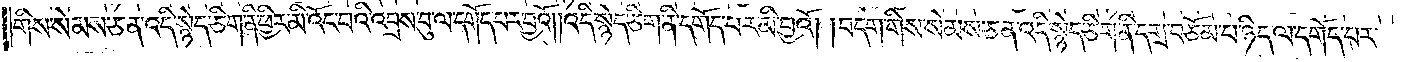གིས་སེམས་ཅན་འདི་སྙེད་ཅིག་ནི་ཕྱིར་མི་འོང་བའི་འབྲས་བུ་ལ་དགོད་པར་བྱའོ། །འདི་སྙེད་ཅིག་ནི་དགོད་པར་མི་བྱའོ། །བདག་གིས་སེམས་ཅན་འདི་སྙེད་ཅིག་ནི་དགྲ་བཅོམ་པ་ཉིད་ལ་དགོད་པར་
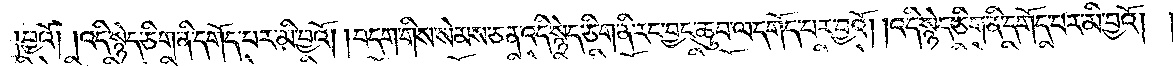བྱའོ། །འདི་སྙེད་ཅིག་ནི་དགོད་པར་མི་བྱའོ། །བདག་གིས་སེམས་ཅན་འདི་སྙེད་ཅིག་ནི་རང་བྱང་ཆུབ་ལ་དགོད་པར་བྱའོ། །འདི་སྙེད་ཅིག་ནི་དགོད་པར་མི་བྱའོ། །
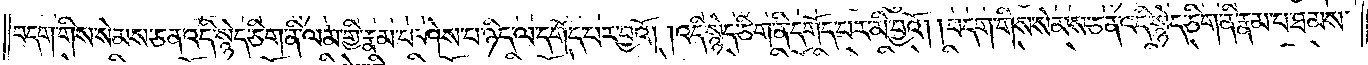བདག་གིས་སེམས་ཅན་འདི་སྙེད་ཅིག་ནི་ལམ་གྱི་རྣམ་པ་ཤེས་པ་ཉིད་ལ་དགོད་པར་བྱའོ། །འདི་སྙེད་ཅིག་ནི་དགོད་པར་མི་བྱའོ། །བདག་གིས་སེམས་ཅན་འདི་སྙེད་ཅིག་ནི་རྣམ་པ་ཐམས་
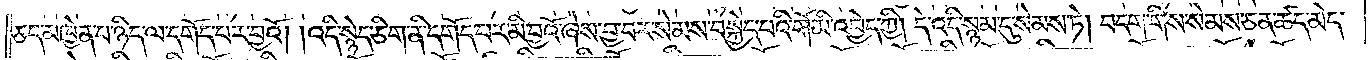ཅད་མཁྱེན་པ་ཉིད་ལ་དགོད་པར་བྱའོ། །འདི་སྙེད་ཅིག་ནི་དགོད་པར་མི་བྱའོ་ཞེས་བྱ་བར་སེམས་བསྐྱེད་པའི་གོ་མི་འབྱེད་ཀྱི། དེ་འདི་སྙམ་དུ་སེམས་ཏེ། བདག་གིས་སེམས་ཅན་ཚད་མེད་
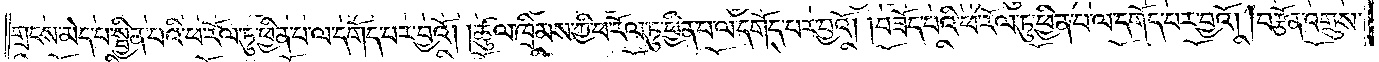གྲངས་མེད་པ་སྦྱིན་པའི་ཕ་རོལ་ཏུ་ཕྱིན་པ་ལ་དགོད་པར་བྱའོ། །ཚུལ་ཁྲིམས་ཀྱི་ཕ་རོལ་ཏུ་ཕྱིན་པ་ལ་དགོད་པར་བྱའོ། །བཟོད་པའི་ཕ་རོལ་ཏུ་ཕྱིན་པ་ལ་དགོད་པར་བྱའོ། །བརྩོན་འགྲུས་
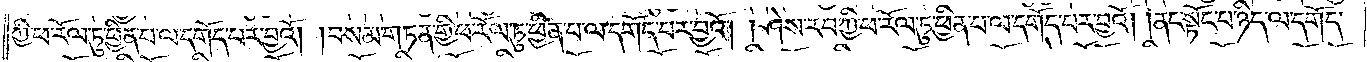ཀྱི་ཕ་རོལ་ཏུ་ཕྱིན་པ་ལ་དགོད་པར་བྱའོ། །བསམ་གཏན་གྱི་ཕ་རོལ་ཏུ་ཕྱིན་པ་ལ་དགོད་པར་བྱའོ། །ཤེས་རབ་ཀྱི་ཕ་རོལ་ཏུ་ཕྱིན་པ་ལ་དགོད་པར་བྱའོ། །ནང་སྟོང་པ་ཉིད་ལ་དགོད་
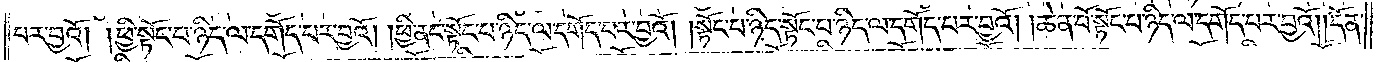པར་བྱའོ། །ཕྱི་སྟོང་པ་ཉིད་ལ་དགོད་པར་བྱའོ། ཕྱི་ནང་སྟོང་པ་ཉིད་ལ་དགོད་པར་བྱའོ། །སྟོང་པ་ཉིད་སྟོང་པ་ཉིད་ལ་དགོད་པར་བྱའོ། །ཆེན་པོ་སྟོང་པ་ཉིད་ལ་དགོད་པར་བྱའོ། །དོན་
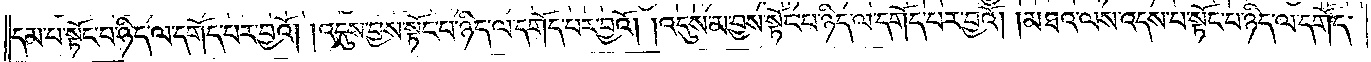དམ་པ་སྟོང་པ་ཉིད་ལ་དགོད་པར་བྱའོ། །འདུས་བྱས་སྟོང་པ་ཉིད་ལ་དགོད་པར་བྱའོ། །འདུས་མ་བྱས་སྟོང་པ་ཉིད་ལ་དགོད་པར་བྱའོ། །མཐའ་ལས་འདས་པ་སྟོང་པ་ཉིད་ལ་དགོད་
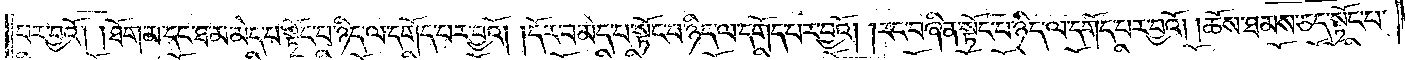པར་བྱའོ། །ཐོག་མ་དང་ཐ་མ་མེད་པ་སྟོང་པ་ཉིད་ལ་དགོད་པར་བྱའོ། །དོར་བ་མེད་པ་སྟོང་པ་ཉིད་ལ་དགོད་པར་བྱའོ། །རང་བཞིན་སྟོང་པ་ཉིད་ལ་དགོད་པར་བྱའོ། །ཆོས་ཐམས་ཅད་སྟོང་པ་
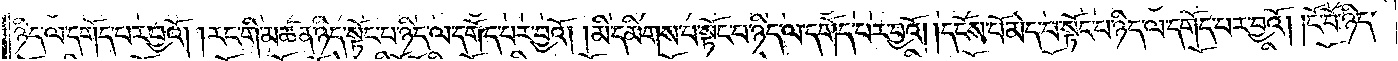ཉིད་ལ་དགོད་པར་བྱའོ། །རང་གི་མཚན་ཉིད་སྟོང་པ་ཉིད་ལ་དགོད་པར་བྱའོ། །མི་དམིགས་པ་སྟོང་པ་ཉིད་ལ་དགོད་པར་བྱའོ། །དངོས་པོ་མེད་པ་སྟོང་པ་ཉིད་ལ་དགོད་པར་བྱའོ། །ངོ་བོ་ཉིད་
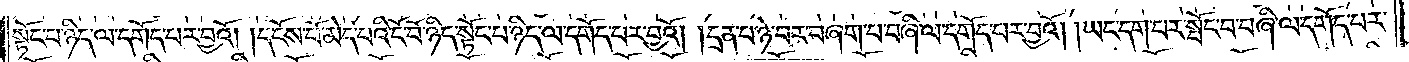སྟོང་པ་ཉིད་ལ་དགོད་པར་བྱའོ། །དངོས་པོ་མེད་པའི་ངོ་བོ་ཉིད་སྟོང་པ་ཉིད་ལ་དགོད་པར་བྱའོ། །དྲན་པ་ཉེ་བར་བཞག་པ་བཞི་ལ་དགོད་པར་བྱའོ། །ཡང་དག་པར་སྤོང་བ་བཞི་ལ་དགོད་པར་
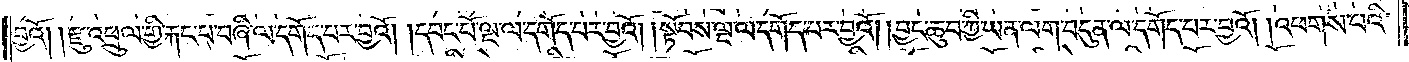བྱའོ། །རྫུ་འཕྲུལ་གྱི་རྐང་པ་བཞི་ལ་དགོད་པར་བྱའོ། །དབང་པོ་ལྔ་ལ་དགོད་པར་བྱའོ། །སྟོབས་ལྔ་ལ་དགོད་པར་བྱའོ། །བྱང་ཆུབ་ཀྱི་ཡན་ལག་བདུན་ལ་དགོད་པར་བྱའོ། །འཕགས་པའི་
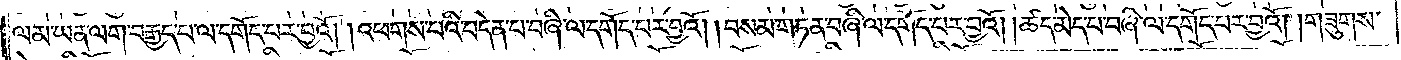ལམ་ཡན་ལག་བརྒྱད་པ་ལ་དགོད་པར་བྱའོ། །འཕགས་པའི་བདེན་པ་བཞི་ལ་དགོད་པར་བྱའོ། །བསམ་གཏན་བཞི་ལ་དགོད་པར་བྱའོ། །ཚད་མེད་པ་བཞི་ལ་དགོད་པར་བྱའོ། །གཟུགས་
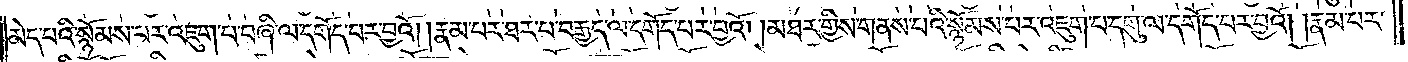མེད་པའི་སྙོམས་པར་འཇུག་པ་བཞི་ལ་དགོད་པར་བྱའོ། །རྣམ་པར་ཐར་པ་བརྒྱད་ལ་དགོད་པར་བྱའོ། །མཐར་གྱིས་གནས་པའི་སྙོམས་པར་འཇུག་པ་དགུ་ལ་དགོད་པར་བྱའོ། །རྣམ་པར་
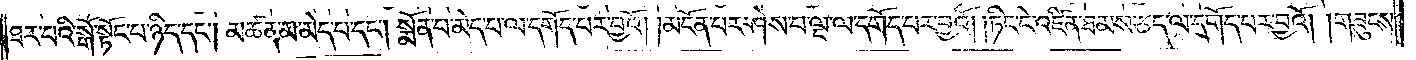ཐར་པའི་སྒོ་སྟོང་པ་ཉིད་དང༌། མཚན་མ་མེད་པ་དང༌། སྨོན་པ་མེད་པ་ལ་དགོད་པར་བྱའོ། །མངོན་པར་ཤེས་པ་ལྔ་ལ་དགོད་པར་བྱའོ། །ཏིང་ངེ་འཛིན་ཐམས་ཅད་ལ་དགོད་པར་བྱའོ། །གཟུངས་
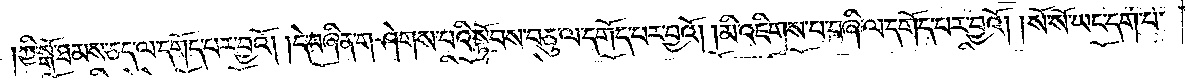ཀྱི་སྒོ་ཐམས་ཅད་ལ་དགོད་པར་བྱའོ། །དེ་བཞིན་གཤེགས་པའི་སྟོབས་བཅུ་ལ་དགོད་པར་བྱའོ། །མི་འཇིགས་པ་བཞི་ལ་དགོད་པར་བྱའོ། །སོ་སོ་ཡང་དག་པ་
